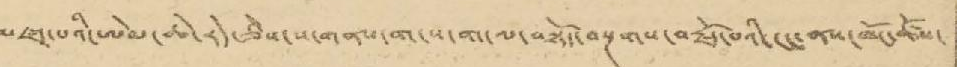མཛད་པའི་ཨེམ་ཆེ་རེད་ཅེས་ས་གནས་ག་ས་ག་ལ་བསྟོད་བསྔགས་བརྗོད་པའི་ངང་ནས་ཁོང་ཚོས་
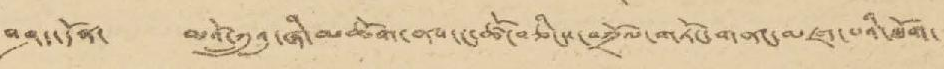བཤད་དོན་ མའོ་ཀྲུའུ་ཞི་མཆོག་ནས་ང་ཚོ་བཅིངས་བཀྲོལ་གནང་མཛད་པའི་ཐོག་
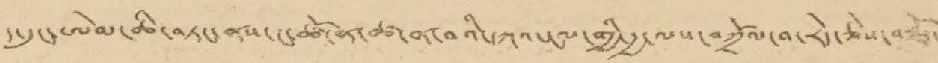ད་དུང་ཨེམ་ཆི་བཏང་ནས་ང་ཚོ་ན་ཚ་ན་བའི་དཀའ་ངལ་གྱི་རྒྱ་ལས་བཀྲོལ་བ་རེད་ཅེས་བཟོ་
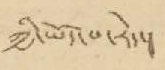ཀྱི་ཡོད་པ་རེད་།
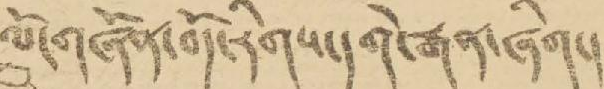ལོ་གཞོན་བོད་རིགས་དགེ་རྒན་ཞིག་།
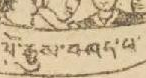ལོ་རྒྱུས་བཤད་པ་
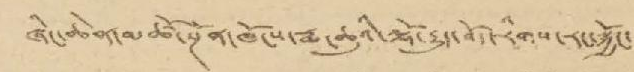ཞིང་ཆེན་མཚོ་སྔོན་ཁོངས་རྨ་ཆུའི་ལྷོ་རྒྱུད་བོད་རིགས་རང་སྐྱོང་
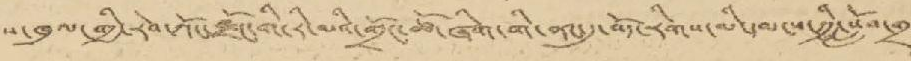ས་ཁུལ་གྱི་རེབ་ཀོང་རྫོང་གི་རི་མའི་གྲོང་ཚོ་ཞིག་གི་ནང་དུ་བོད་རིགས་མི་དམངས་ཀྱི་སློབ་གྲྭ་
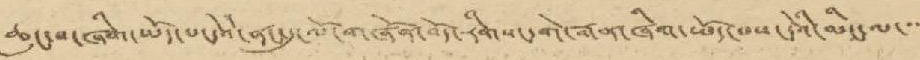ཆུང་བ་ཞིག་ཡོད་པ་དེའི་ནང་དུ་ལོ་གཞོན་བོད་རིགས་དགེ་རྒན་ཞིག་ཡོད་པས་དེའི་མིང་ལ་་་་
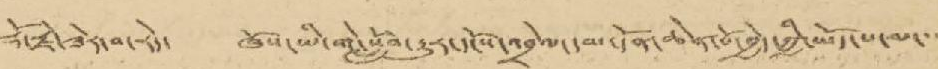རྡོ་རྗེ་ཟེར་བ་རེད་ ཁོས་ཡི་གེ་སློབ་རྒྱུར་དངོས་འབྲེལ་དམ་དོན་ཆེན་པོ་བྱེད་ཀྱི་ཡོད་པ་མ་་་
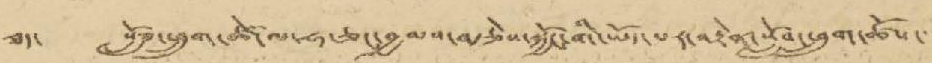ཟད་ སློབ་ཕྲུག་ཚེ་ལ་ཧ་ཅང་བྱམས་བརྩེས་སྐྱོང་གི་ཡོད་པར་བརྟེན་སློབ་ཕྲུག་ཚོས་་་་
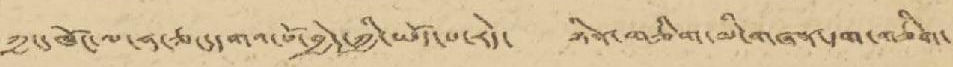ཀྱང་ཁོང་ལ་ཧ་ཅང་དགའ་བོ་བྱེད་ཀྱི་ཡོད་པ་རེད་ ཉིན་གཅིག་མི་གཞན་དག་གཅིག་
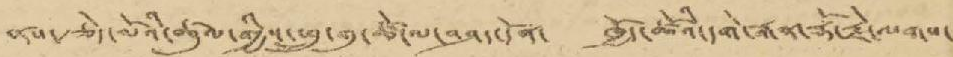ནས་རྩེད་མོའི་ཚུལ་གྱིས་ཕྲུ་གུ་ཚེ་ལ་བཤད་དོན་ ཁྱོད་ཚོའི་དགེ་རྒན་རྡོ་རྗེ་ལགས་
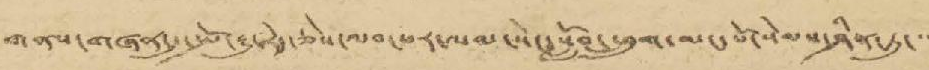གནས་གཞན་དུ་སྤོ་རྒྱུ་རེད་ཅེས་ལབ་པར་ལམ་སེང་སློབ་ཕྲུག་མང་པོ་སེམས་ཤིན་ཏུ་་་
